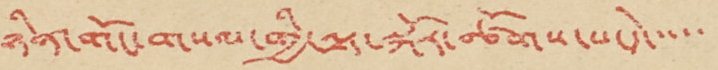ཉིན་གོང་གསལ་གྱི་ལྟ་སྐོར་ཚོགས་པ་དེ་་་་་
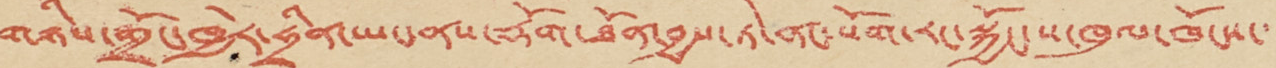གཉིས་གྲོང་ཁྱེར་ཧྲིན་ཡང་ནས་རྡོག་ཐོན་བྱས་ཏེ་ནང་སོག་རང་སྐྱོང་ས་ཁུལ་ཁོངས་་
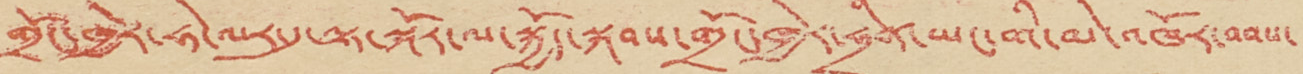གྲོང་ཁྱེར་ཧེ་ལར་དུ་ལྟ་སྐོར་ལ་སྐྱོད་སྐབས་གྲོང་ཁྱེར་ཧྲིན་ཡང་གི་མེ་འཁོར་བབས་
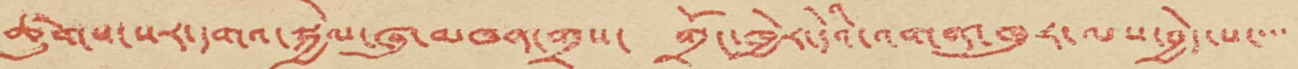ཚུགས་སར་དགའ་སྐྱེལ་ཞུ་མཁན་གྲས་ གྲོང་ཁྱེར་དེའི་འགན་ཁུར་ལས་བྱེད་པ་་་་
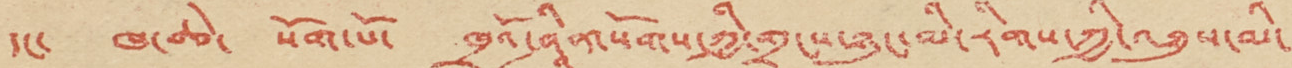དང་ ཁ་ཆེ་ སོག་པོ་ ཁྲའོ་ཤཱིན་སོགས་ཀྱི་གྲངས་ཉུང་མི་རིགས་ཀྱི་འཐུས་མི་
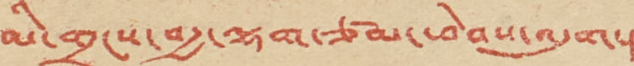མི་གྲངས་བརྒྱ་ལྷག་ཙམ་ཕེབས་འདུག།
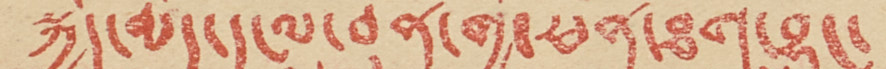སྐྱེད་མེད་དངུལ་བུན་གྱི་ཕན་ཐོགས་བྱུང་
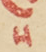ས
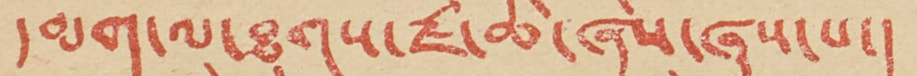དམག་ལ་ཐུགས་རྗེ་ཆེ་ཞེས་ཞུས་པ་།
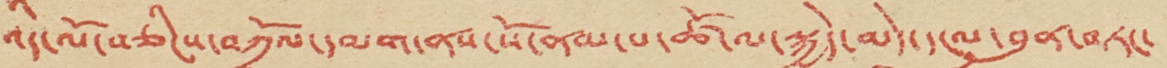འདི་ལོ་བཅིངས་བཀྲོལ་དམག་ནས་སོ་ནམ་པ་ཚོ་ལ་སྐྱེད་མེད་དངུལ་བུན་བཏང་
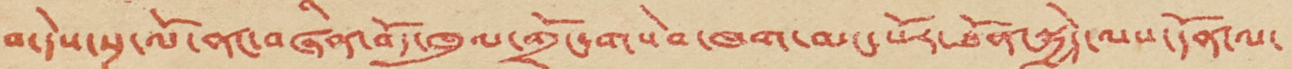བ་དེས་སྔ་ལོ་ནང་བཞིན་བོད་ཁུལ་གྲོང་གསེབ་ཁག་མང་པོར་ཐོན་སྐྱེད་ལས་དོན་ལ་
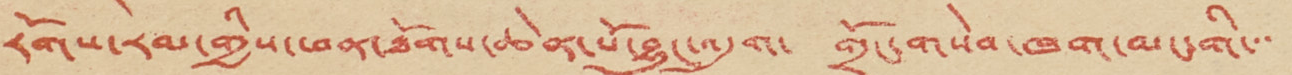རོགས་རམ་གྱིས་ཕན་ཐོགས་ཆེན་པོ་བྱུང་འདུག་ གྲོང་གསེབ་ཁག་མང་གི་་་
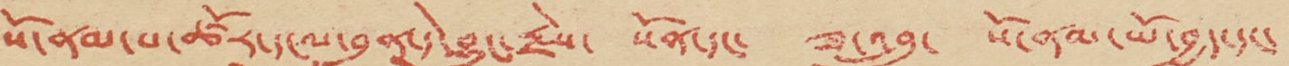སོ་ནམ་པ་ཚོར་དངུལ་བུན་དེ་བྱུང་རྗེས་ སོན་དང་ ཟ་འབྲུ་ སོ་ནམ་ཡོ་བྱད་དང་
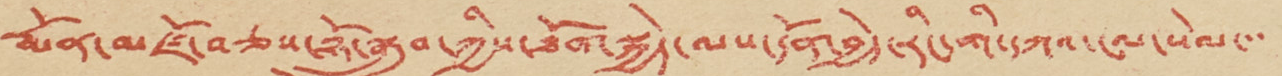རྨོན་མཛོ་བཅས་ཉི་སྒྲུབ་ཀྱིས་ཐོན་སྐྱེད་ལས་དོན་བྱེད་རིང་གི་དཀའ་ངལ་སེལ་་་
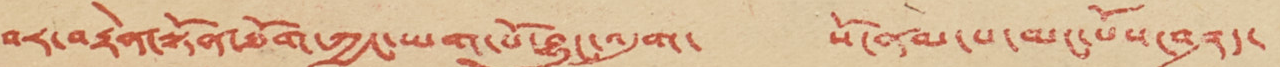བར་བརྟེན་སྟོན་ཐོག་ཀྱང་ཡག་པོ་བྱུང་འདུག་ སོ་ནམ་པ་མང་པོས་བཤད་
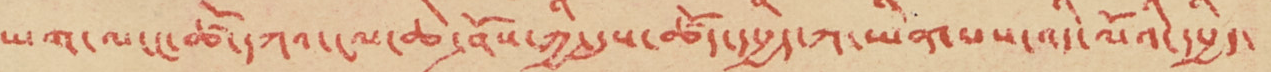ཡག་ལ་ང་ཚོ་དཀའ་ངལ་ཆེ་ཤོས་ཀྱི་དུས་ཚོད་དཔྱིད་ཀ་ཡིན་པས་འདི་ལོའི་དཔྱིད་
